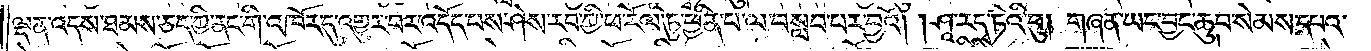ལྡན་འདས་ཐམས་ཅད་ཀྱི་ནང་གི་འཁོར་དུ་འགྱུར་བར་འདོད་པས་ཤེས་རབ་ཀྱི་ཕ་རོལ་ཏུ་ཕྱིན་པ་ལ་བསླབ་པར་བྱའོ། །ཤཱ་ར་དྭ་ཏིའི་བུ། གཞན་ཡང་བྱང་ཆུབ་སེམས་དཔའ་
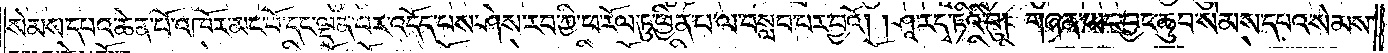སེམས་དཔའ་ཆེན་པོ་འཁོར་མང་པོ་དང་ལྡན་པར་འདོད་པས་ཤེས་རབ་ཀྱི་ཕ་རོལ་ཏུ་ཕྱིན་པ་ལ་བསླབ་པར་བྱའོ། །ཤཱ་ར་དྭ་ཏིའི་བུ། གཞན་ཡང་བྱང་ཆུབ་སེམས་དཔའ་སེམས་
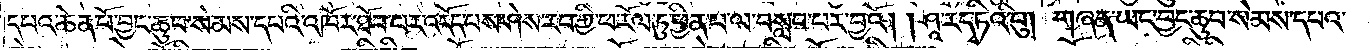དཔའ་ཆེན་པོ་བྱང་ཆུབ་སེམས་དཔའི་འཁོར་ཐོབ་པར་འདོད་པས་ཤེས་རབ་ཀྱི་ཕ་རོལ་ཏུ་ཕྱིན་པ་ལ་བསླབ་པར་བྱའོ། །ཤཱ་ར་དྭ་ཏིའི་བུ། གཞན་ཡང་བྱང་ཆུབ་སེམས་དཔའ་
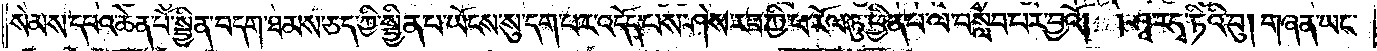སེམས་དཔའ་ཆེན་པོ་སྦྱིན་བདག་ཐམས་ཅད་ཀྱི་སྦྱིན་པ་ཡོངས་སུ་དག་པར་འདོད་པས་ཤེས་རབ་ཀྱི་ཕ་རོལ་ཏུ་ཕྱིན་པ་ལ་བསླབ་པར་བྱའོ། །ཤཱ་ར་དྭ་ཏིའི་བུ། གཞན་ཡང་
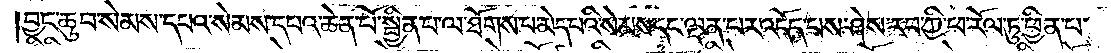བྱང་ཆུབ་སེམས་དཔའ་སེམས་དཔའ་ཆེན་པོ་སྦྱིན་པ་ལ་ཐོགས་པ་མེད་པའི་སེམས་དང་ལྡན་པར་འདོད་པས་ཤེས་རབ་ཀྱི་ཕ་རོལ་ཏུ་ཕྱིན་པ་
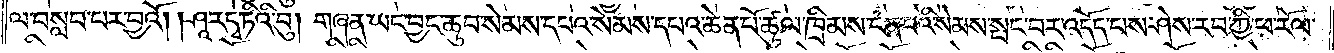ལ་བསླབ་པར་བྱའོ། །ཤཱ་ར་དྭ་ཏིའི་བུ། གཞན་ཡང་བྱང་ཆུབ་སེམས་དཔའ་སེམས་དཔའ་ཆེན་པོ་ཚུལ་ཁྲིམས་ངན་པའི་སེམས་སྤང་བར་འདོད་པས་ཤེས་རབ་ཀྱི་ཕ་རོལ་
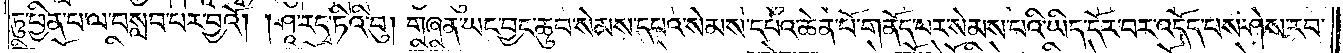ཏུ་ཕྱིན་པ་ལ་བསླབ་པར་བྱའོ། །ཤཱ་ར་དྭ་ཏིའི་བུ། གཞན་ཡང་བྱང་ཆུབ་སེམས་དཔའ་སེམས་དཔའ་ཆེན་པོ་གནོད་པར་སེམས་པའི་ཡིད་དོར་བར་འདོད་པས་ཤེས་རབ་
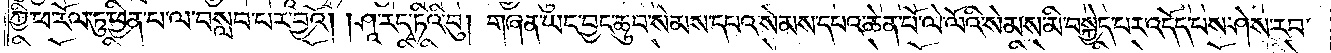ཀྱི་ཕ་རོལ་ཏུ་ཕྱིན་པ་ལ་བསླབ་པར་བྱའོ། །ཤཱ་ར་དྭ་ཏིའི་བུ། གཞན་ཡང་བྱང་ཆུབ་སེམས་དཔའ་སེམས་དཔའ་ཆེན་པོ་ལེ་ལོའི་སེམས་མི་བསྐྱེད་པར་འདོད་པས་ཤེས་རབ་
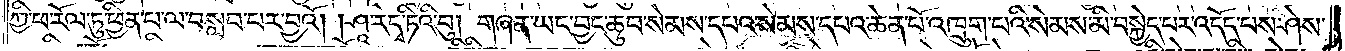ཀྱི་ཕ་རོལ་ཏུ་ཕྱིན་པ་ལ་བསླབ་པར་བྱའོ། །ཤཱ་ར་དྭ་ཏིའི་བུ། གཞན་ཡང་བྱང་ཆུབ་སེམས་དཔའ་སེམས་དཔའ་ཆེན་པོ་འཁྲུག་པའི་སེམས་མི་བསྐྱེད་པར་འདོད་པས་ཤེས་
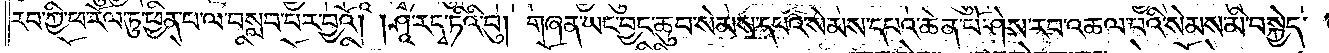རབ་ཀྱི་ཕ་རོལ་ཏུ་ཕྱིན་པ་ལ་བསླབ་པར་བྱའོ། །ཤཱ་ར་དྭ་ཏིའི་བུ། གཞན་ཡང་བྱང་ཆུབ་སེམས་དཔའ་སེམས་དཔའ་ཆེན་པོ་ཤེས་རབ་འཆལ་བའི་སེམས་མི་བསྐྱེད་
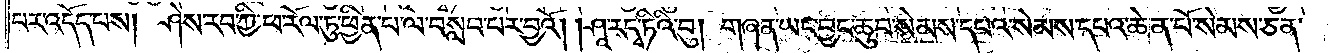པར་འདོད་པས། ཤེས་རབ་ཀྱི་ཕ་རོལ་ཏུ་ཕྱིན་པ་ལ་བསླབ་པར་བྱའོ། །ཤཱ་ར་དྭ་ཏིའི་བུ། གཞན་ཡང་བྱང་ཆུབ་སེམས་དཔའ་སེམས་དཔའ་ཆེན་པོ་སེམས་ཅན་
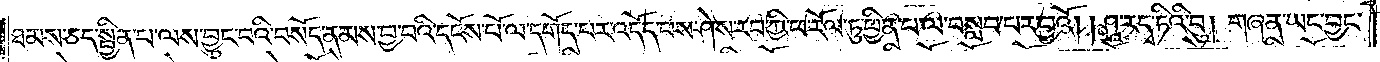ཐམས་ཅད་སྦྱིན་པ་ལས་བྱུང་བའི་བསོད་ནམས་བྱ་བའི་དངོས་པོ་ལ་དགོད་པར་འདོད་པས་ཤེས་རབ་ཀྱི་ཕ་རོལ་ཏུ་ཕྱིན་པ་ལ་བསླབ་པར་བྱའོ། །ཤཱ་ར་དྭ་ཏིའི་བུ། གཞན་ཡང་བྱང་
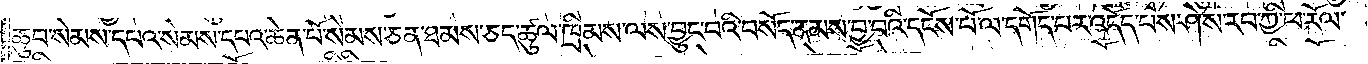ཆུབ་སེམས་དཔའ་སེམས་དཔའ་ཆེན་པོ་སེམས་ཅན་ཐམས་ཅད་ཚུལ་ཁྲིམས་ལས་བྱུང་བའི་བསོད་ནམས་བྱ་བའི་དངོས་པོ་ལ་དགོད་པར་འདོད་པས་ཤེས་རབ་ཀྱི་ཕ་རོལ་
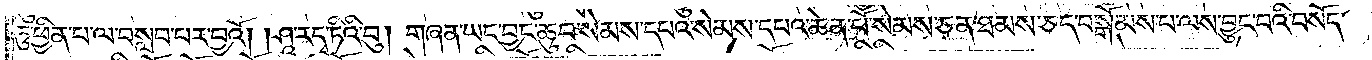ཏུ་ཕྱིན་པ་ལ་བསླབ་པར་བྱའོ། །ཤཱ་ར་དྭ་ཏིའི་བུ། གཞན་ཡང་བྱང་ཆུབ་སེམས་དཔའ་སེམས་དཔའ་ཆེན་པོ་སེམས་ཅན་ཐམས་ཅད་བསྒོམས་པ་ལས་བྱུང་བའི་བསོད་
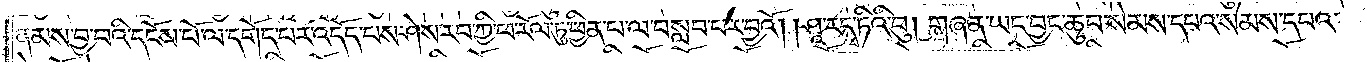ནམས་བྱ་བའི་དངོས་པོ་ལ་དགོད་པར་འདོད་པས་ཤེས་རབ་ཀྱི་ཕ་རོལ་ཏུ་ཕྱིན་པ་ལ་བསླབ་པར་བྱའོ། །ཤཱ་ར་དྭ་ཏིའི་བུ། གཞན་ཡང་བྱང་ཆུབ་སེམས་དཔའ་སེམས་དཔའ་
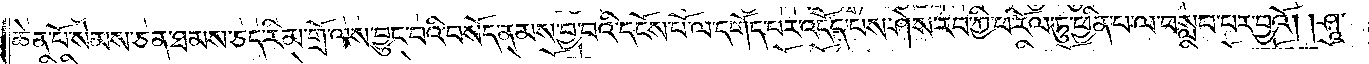ཆེན་པོ་སེམས་ཅན་ཐམས་ཅད་རིམ་གྲོ་ལས་བྱུང་བའི་བསོད་ནམས་བྱ་བའི་དངོས་པོ་ལ་དགོད་པར་འདོད་པས་ཤེས་རབ་ཀྱི་ཕ་རོལ་ཏུ་ཕྱིན་པ་ལ་བསླབ་པར་བྱའོ། །ཤཱ་
